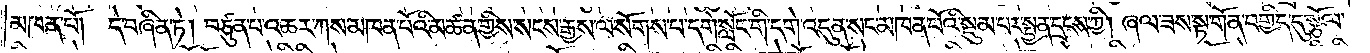མཁན་པོ། དེ་བཞིན་ཏེ། བཙུན་པ་འཆར་ཀས་མཁན་པོའི་མཚན་གྱིས་སངས་རྒྱས་ལ་སོགས་པ་དགེ་སློང་གི་དགེ་འདུན་སང་མཁན་པོའི་སྡུམ་པར་སྤྱན་དྲངས་ཀྱི། ཞལ་ཟས་སྟ་གོན་བགྱིད་དུ་སྩོལ་
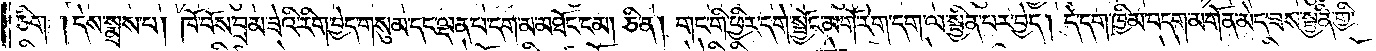ཅིག །དེས་སྨྲས་པ། ཁོ་བོས་བྲམ་ཟེའི་རིག་བྱེད་གསུམ་དང་ལྡན་པ་དག་མ་མཐོང་ངམ། ཅི་ན། གང་གི་ཕྱིར་དགེ་སྦྱོང་མགོ་རེག་དག་ལ་སྦྱིན་པར་བྱེད། དེ་དག་ཁྱིམ་བདག་མགོན་མེད་ཟས་སྦྱིན་གྱི་
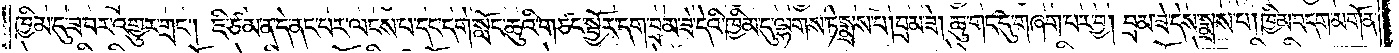ཁྱིམ་དུ་ཟ་བར་འགྱུར་གྲང༌། ཇི་ཙམ་ན་དེ་ནང་པར་ལངས་པ་དང་དགེ་སློང་ཆུའི་གཙང་སྦྱོར་དག་བྲམ་ཟེ་དེའི་ཁྱིམ་དུ་ལྷགས་ཏེ་སྨྲས་པ། བྲམ་ཟེ། ཆུ་གང་དུ་གཞག་པར་བྱ། བྲམ་ཟེ་དེས་སྨྲས་པ། ཁྱིམ་བདག་མགོན་
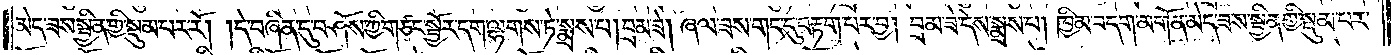མེད་ཟས་སྦྱིན་གྱི་སྡུམ་པར་རོ། །དེ་བཞིན་དུ་བཤོས་ཀྱི་གཙང་སྦྱོར་དག་ལྷགས་ཏེ་སྨྲས་པ། བྲམ་ཟེ། ཞལ་ཟས་གང་དུ་བརྟག་པར་བྱ། བྲམ་ཟེ་དེས་སྨྲས་པ། ཁྱིམ་བདག་མགོན་མེད་ཟས་སྦྱིན་གྱི་སྡུམ་པར་
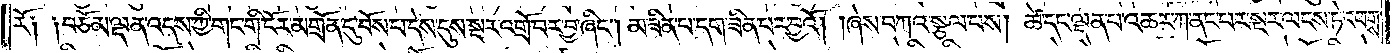རོ༑ ༑བཅོམ་ལྡན་འདས་ཀྱི་གང་གི་ངོར་མགྲོན་དུ་བོས་བ་དེས་དུས་སྔར་འགྲོ་བར་བྱ་ཞིང༌། མ་ཟིན་པ་དག་ཟིན་པར་བྱའོ། །ཞེས་བཀའ་སྩལ་པས། ཚེ་དང་ལྡན་པ་འཆར་ཀ་ནང་པར་སྔར་ལངས་ཏེ་འཕགས་
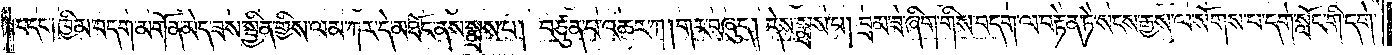པ་དང༌། ཁྱིམ་བདག་མགོན་མེད་ཟས་སྦྱིན་གྱིས་ལམ་ཀར་དེ་མཐོང་ནས་སྨྲས་པ། བཙུན་པ་འཆར་ཀ །གར་བཞུད། དེས་སྨྲས་པ། བྲམ་ཟེ་ཞིག་གིས་བདག་ལ་བརྟེན་ཏེ་སངས་རྒྱས་ལ་སོགས་པ་དགེ་སློང་གི་དགེ་
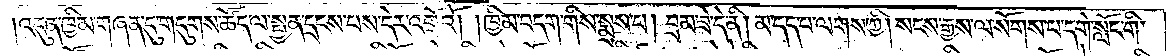འདུན་ཁྱིམ་གཞན་དུ་གདུགས་ཚོད་ལ་སྤྱན་དྲངས་པས་དེར་འགྲོའོ། །ཁྱིམ་བདག་གིས་སྨྲས་པ། བྲམ་ཟེ་དེ་ནི། མ་དད་པ་ལགས་ཀྱི། སངས་རྒྱས་ལ་སོགས་པ་དགེ་སློང་གི་
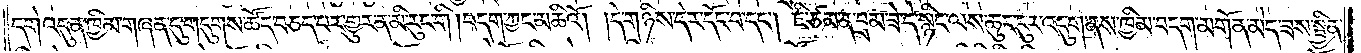དགེ་འདུན་ཁྱིམ་གཞན་དུ་གདུགས་ཚོད་བཅད་པར་གྱུར་ན་མི་རུང་གི །བདག་ཀྱང་མཆིའོ། །དེ་གཉིས་དེར་དོང་བ་དང༌། ཇི་ཙམ་ན་བྲམ་ཟེ་དེ་སྙིང་ལས་ཆུང་ངུར་འདུག་ནས་ཁྱིམ་བདག་མགོན་མེད་ཟས་སྦྱིན་
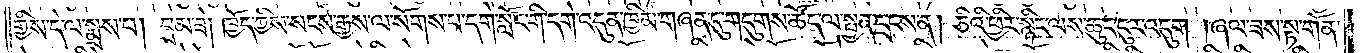གྱིས་དེ་ལ་སྨྲས་པ། བྲམ་ཟེ། ཁྱོད་ཀྱིས་སངས་རྒྱས་ལ་སོགས་པ་དགེ་སློང་གི་དགེ་འདུན་ཁྱིམ་གཞན་དུ་གདུགས་ཚོད་ལ་སྤྱན་དྲངས་ན། ཅིའི་ཕྱིར་སྙིང་ལས་ཆུང་ངུར་འདུག །ཞལ་ཟས་སྟ་གོན་
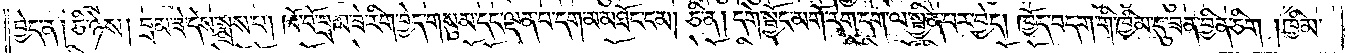བྱེད་ན། ཅི་ཉེས། བྲམ་ཟེ་དེས་སྨྲས་པ། ཁོ་བོ་བྲམ་ཟེ་རིག་བྱེད་གསུམ་དང་ལྡན་པ་དག་མ་མཐོང་ངམ། ཅི་ན། དགེ་སྦྱོང་མགོ་རེག་དག་ལ་སྦྱིན་པར་བྱེད། ཁྱོད་བདག་གི་ཁྱིམ་དུ་ཟན་བྱིན་ཅིག །ཁྱིམ་
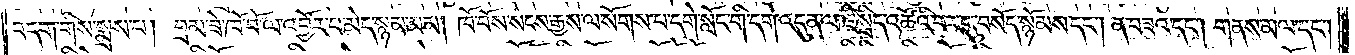བདག་གིས་སྨྲས་པ། བྲམ་ཟེ་ཁོ་བོ་ལ་འབྱོར་པ་མེད་སྙམ་མམ། ཁོ་བོས་སངས་རྒྱས་ལ་སོགས་པ་དགེ་སློང་གི་དགེ་འདུན་ལ་ཇི་སྲིད་འཚོའི་བར་དུ་བསོད་སྙོམས་དང༌། ན་བཟའ་དང༌། གནས་མལ་དང༌།
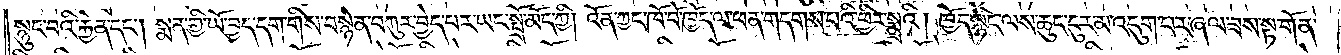སྙུང་བའི་རྐྱེན་དང༌། སྨན་གྱི་ཡོ་བྱད་དག་གིས་བསྙེན་བཀུར་བྱེད་པར་ཡང་སྤྲོ་མོད་ཀྱི། འོན་ཀྱང་ཁོ་བོ་ཁྱོད་ལ་ཕན་གདགས་པའི་ཕྱིར་སྨྲའི། ཁྱོད་སྙིང་ལས་ཆུང་ངུར་མ་འདུག་པར་ཞལ་ཟས་སྟ་གོན་
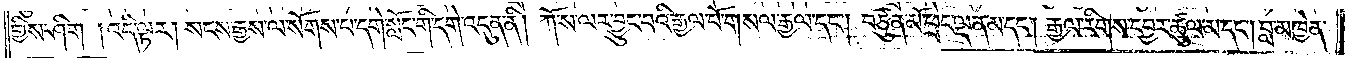གྱིས་ཤིག །འདི་ལྟར། སངས་རྒྱས་ལ་སོགས་པ་དགེ་སློང་གི་དགེ་འདུན་ནི། ཀོ་ས་ལར་བྱུང་བའི་རྒྱལ་པོ་གསལ་རྒྱལ་དང༌། བཙུན་མོ་ཕྲེང་ལྡན་མ་དང༌། རྒྱལ་རིགས་དབྱར་ཚུལ་མ་དང༌། བླ་མཁྱེན་
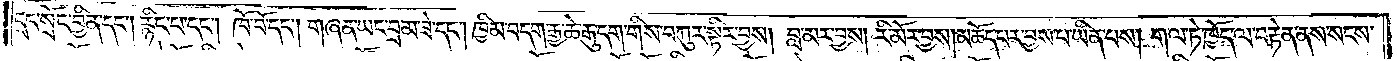དྲང་སྲོང་བྱིན་དང༌། རྙིང་པ་དང༌། ཁོ་བོ་དང༌། གཞན་ཡང་བྲམ་ཟེ་དང༌། ཁྱིམ་བདག་རྒྱ་ཆེ་རྒུ་དག་གིས་བཀུར་སྟིར་བྱས། བླ་མར་བྱས། རི་མོར་བྱས། མཆོད་པར་བྱས་པ་ཡིན་པས། གལ་ཏེ་ཁྱོད་ལ་བརྟེན་ནས་སངས་
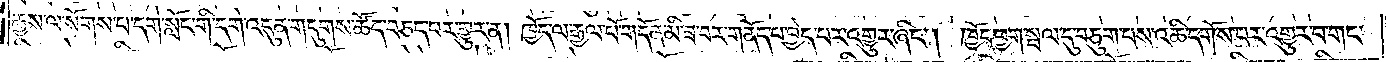རྒྱས་ལ་སོགས་པ་དགེ་སློང་གི་དགེ་འདུན་གདུགས་ཚོད་བཅད་པར་གྱུར་ན། ཁྱོད་ལ་རྒྱལ་པོ་གདོན་མི་ཟ་བར་གནོད་པ་བྱེད་པར་འགྱུར་ཞིང༌། ཁྱོད་ཕྱག་སྦལ་དུ་བཅུག་པས་འཆི་དགོས་པར་འགྱུར་པ་གང་
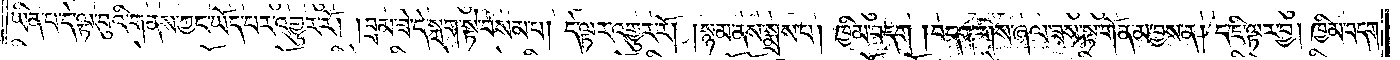ཡིན་པ་དེ་ལྟ་བུའི་གནས་ཀྱང་ཡོད་པར་འགྱུར་རོ། །བྲམ་ཟེ་དེ་སྐྲག་སྟེ་བསམ་པ། དེ་ལྟར་འགྱུར་རོ། །སྙམ་ནས་སྨྲས་པ། ཁྱིམ་བདག །བདག་གིས་ཞལ་ཟས་སྟ་གོན་མ་བྱས་ན། ད་ཇི་ལྟར་བྱ། ཁྱིམ་བདག་
